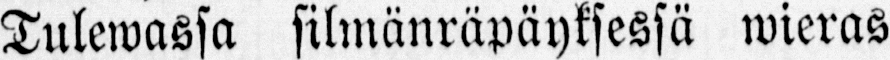Tulewassa silmänräpäyksessä wieras
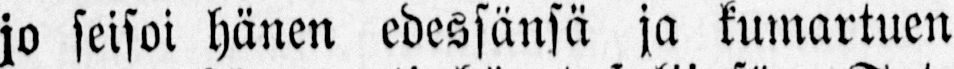jo seisoi hänen edessänsä ja kumartuen
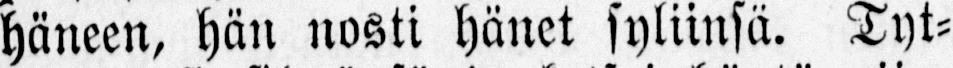häneen, hän nosti hänet syliinsä. Tyt-
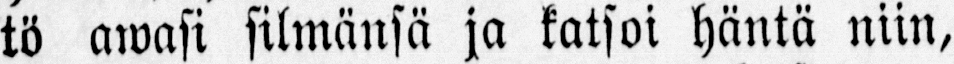tö awasi silmänsä ja katsoi häntä niin,
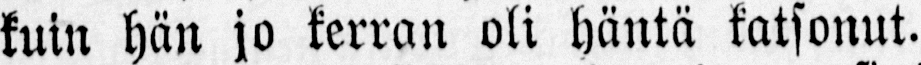kuin hän jo kerran oli häntä katsonut.
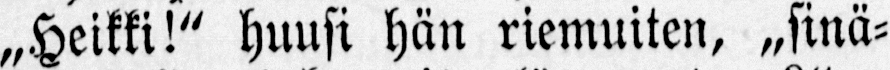„Heikki!" huusi hän riemuiten, „sinä-
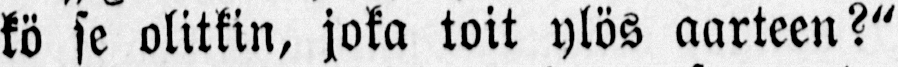kö se olitkin, joka toit ylös aarteen?"
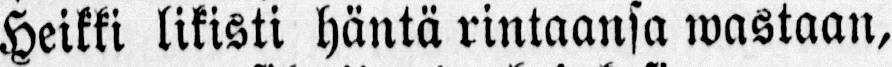Heikki likisti häntä rintaansa wastaan,
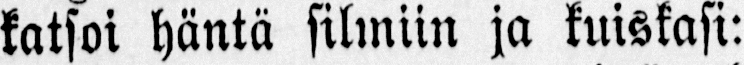katsoi häntä silmiin ja kuiskasi:
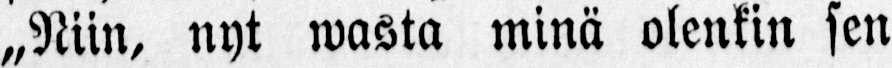„Niin, nyt wasta minä olenkin sen
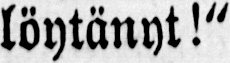löytänyt!"
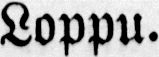Loppu.
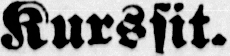Kurssit.
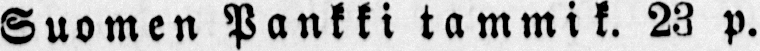Suomen Pankki tammik. 23 p.
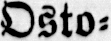Osto-
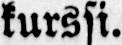kurssi.
